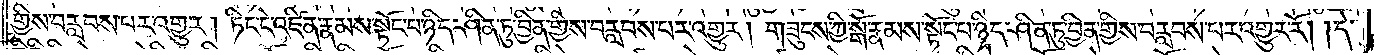གྱིས་བརླབས་པར་འགྱུར། ཏིང་ངེ་འཛིན་རྣམས་སྟོང་པ་ཉིད་ཤིན་ཏུ་བྱིན་གྱིས་བརླབས་པར་འགྱུར། གཟུངས་ཀྱི་སྒོ་རྣམས་སྟོང་པ་ཉིད་ཤིན་ཏུ་བྱིན་གྱིས་བརླབས་པར་འགྱུར་རོ། །དེ་
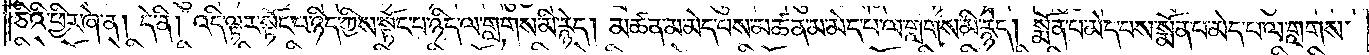ཅིའི་ཕྱིར་ཞེ་ན། དེ་ནི། འདི་ལྟར་སྟོང་པ་ཉིད་ཀྱིས་སྟོང་པ་ཉིད་ལ་གླགས་མི་རྙེད། མཚན་མ་མེད་པས་མཚན་མ་མེད་པ་ལ་གླགས་མི་རྙེད། སྨོན་པ་མེད་པས་སྨོན་པ་མེད་པ་ལ་གླགས་
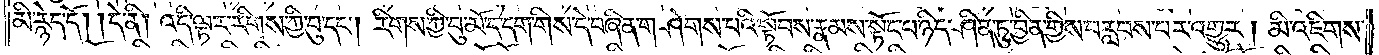མི་རྙེད་དོ། །དེ་ནི། འདི་ལྟར་རིགས་ཀྱི་བུ་དང༌། རིགས་ཀྱི་བུ་མོ་དེ་དག་གིས་དེ་བཞིན་གཤེགས་པའི་སྟོབས་རྣམས་སྟོང་པ་ཉིད་ཤིན་ཏུ་བྱིན་གྱིས་བརླབས་པར་འགྱུར། མི་འཇིགས་
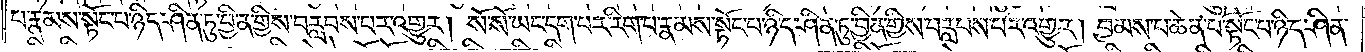པ་རྣམས་སྟོང་པ་ཉིད་ཤིན་ཏུ་བྱིན་གྱིས་བརླབས་པར་འགྱུར། སོ་སོ་ཡང་དག་པར་རིག་པ་རྣམས་སྟོང་པ་ཉིད་ཤིན་ཏུ་བྱིན་གྱིས་བརླབས་པར་འགྱུར། བྱམས་པ་ཆེན་པོ་སྟོང་པ་ཉིད་ཤིན་
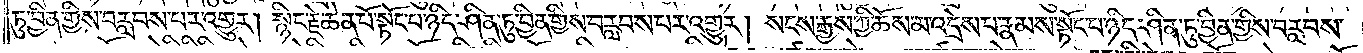ཏུ་བྱིན་གྱིས་བརླབས་པར་འགྱུར། སྙིང་རྗེ་ཆེན་པོ་སྟོང་པ་ཉིད་ཤིན་ཏུ་བྱིན་གྱིས་བརླབས་པར་འགྱུར། སངས་རྒྱས་ཀྱི་ཆོས་མ་འདྲེས་པ་རྣམས་སྟོང་པ་ཉིད་ཤིན་ཏུ་བྱིན་གྱིས་བརླབས་
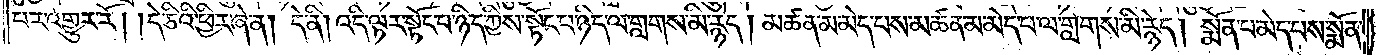པར་འགྱུར་རོ། །དེ་ཅིའི་ཕྱིར་ཞེ་ན། དེ་ནི། འདི་ལྟར་སྟོང་པ་ཉིད་ཀྱིས་སྟོང་པ་ཉིད་ལ་གླགས་མི་རྙེད། མཚན་མ་མེད་པས་མཚན་མ་མེད་པ་ལ་གླགས་མི་རྙེད། སྨོན་པ་མེད་པས་སྨོན་
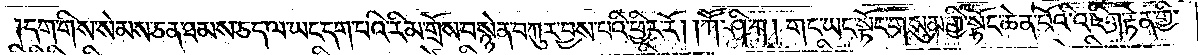དག་གིས་སེམས་ཅན་ཐམས་ཅད་ལ་ཡང་དག་པའི་རིམ་གྲོས་བསྙེན་བཀུར་བྱས་པའི་ཕྱིར་རོ། །ཀཽ་ཤི་ཀ། གང་ཡང་སྟོང་གསུམ་གྱི་སྟོང་ཆེན་པོའི་འཇིག་རྟེན་གྱི་
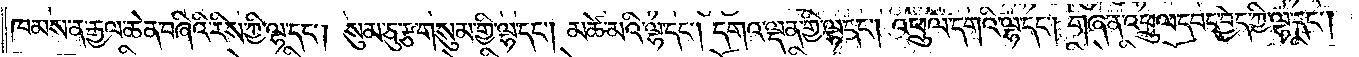ཁམས་ན་རྒྱལ་ཆེན་བཞིའི་རིས་ཀྱི་ལྷ་དང༌། སུམ་ཅུ་རྩ་གསུམ་གྱི་ལྷ་དང༌། མཚེ་མའི་ལྷ་དང༌། དགའ་ལྡན་གྱི་ལྷ་དང༌། འཕྲུལ་དགའི་ལྷ་དང༌། གཞན་འཕྲུལ་དབང་བྱེད་ཀྱི་ལྷ་དང༌།
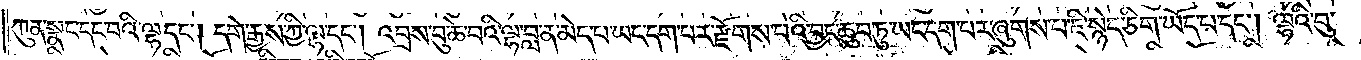ཀུན་སྣང་དང་བའི་ལྷ་དང༌། དགེ་རྒྱས་ཀྱི་ལྷ་དང༌། འབྲས་བུ་ཆེ་བའི་ལྷ་བླ་ན་མེད་པ་ཡང་དག་པར་རྫོགས་པའི་བྱང་ཆུབ་ཏུ་ཡང་དག་པར་ཞུགས་པ་ཇི་སྙེད་ཅིག་ཡོད་པ་དང༌། ལྷའི་བུ་
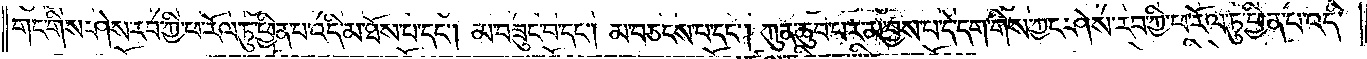གང་གིས་ཤེས་རབ་ཀྱི་ཕ་རོལ་ཏུ་ཕྱིན་པ་འདི་མ་ཐོས་པ་དང༌། མ་བཟུང་བ་དང༌། མ་བཅངས་པ་དང༌། ཀུན་ཆུབ་པར་མ་བྱས་པ་དེ་དག་གིས་ཀྱང་ཤེས་རབ་ཀྱི་ཕ་རོལ་ཏུ་ཕྱིན་པ་འདི་
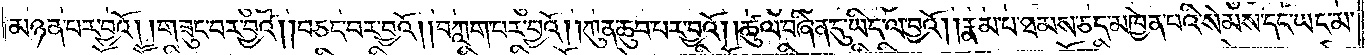མཉན་པར་བྱའོ། །གཟུང་བར་བྱའོ། །བཅང་བར་བྱའོ། །བཀླག་པར་བྱའོ། །ཀུན་ཆུབ་པར་བྱའོ། །ཚུལ་བཞིན་དུ་ཡིད་ལ་བྱའོ། །རྣམ་པ་ཐམས་ཅད་མཁྱེན་པའི་སེམས་དང་ཡང་མ་
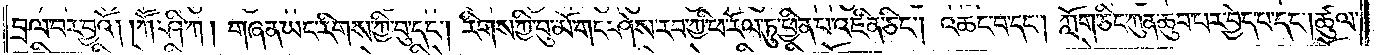བྲལ་བར་བྱའོ། །ཀཽ་ཤི་ཀ། གཞན་ཡང་རིགས་ཀྱི་བུ་དང༌། རིགས་ཀྱི་བུ་མོ་གང་ཤེས་རབ་ཀྱི་ཕ་རོལ་ཏུ་ཕྱིན་པ་འཛིན་ཅིང༌། འཆང་བ་དང༌། ཀློག་ཅིང་ཀུན་ཆུབ་པར་བྱེད་པ་དང༌། ཚུལ་
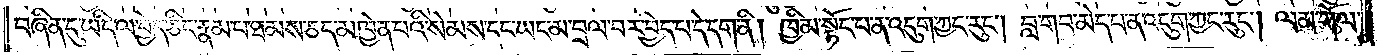བཞིན་དུ་ཡིད་ལ་བྱེད་ཅིང་རྣམ་པ་ཐམས་ཅད་མཁྱེན་པའི་སེམས་དང་ཡང་མ་བྲལ་བར་བྱེད་པ་དེ་དག་ནི། ཁྱིམ་སྟོང་པ་ན་འདུག་ཀྱང་རུང༌། བླ་གབ་མེད་པ་ན་འདུག་ཀྱང་རུང༌། ལམ་གོལ་
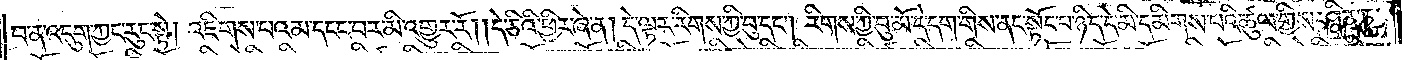བ་ན་འདུག་ཀྱང་རུང་སྟེ། འཇིགས་པའམ་དངང་བར་མི་འགྱུར་རོ། །དེ་ཅིའི་ཕྱིར་ཞེ་ན། དེ་ལྟར་རིགས་ཀྱི་བུ་དང༌། རིགས་ཀྱི་བུ་མོ་དེ་དག་གིས་ནང་སྟོང་པ་ཉིད་དེ་མི་དམིགས་པའི་ཚུལ་གྱིས་ཤིན་ཏུ་
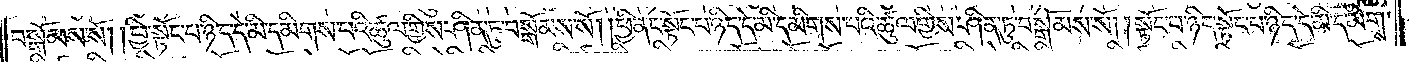བསྒོམས་སོ། །ཕྱི་སྟོང་པ་ཉིད་དེ་མི་དམིགས་པའི་ཚུལ་གྱིས་ཤིན་ཏུ་བསྒོམས་སོ། །ཕྱི་ནང་སྟོང་པ་ཉིད་དེ་མི་དམིགས་པའི་ཚུལ་གྱིས་ཤིན་ཏུ་བསྒོམས་སོ། །སྟོང་པ་ཉིད་སྟོང་པ་ཉིད་དེ་མི་དམིགས་
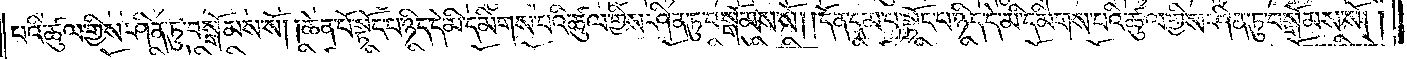པའི་ཚུལ་གྱིས་ཤིན་ཏུ་བསྒོམས་སོ། །ཆེན་པོ་སྟོང་པ་ཉིད་དེ་མི་དམིགས་པའི་ཚུལ་གྱིས་ཤིན་ཏུ་བསྒོམས་སོ། །དོན་དམ་པ་སྟོང་པ་ཉིད་དེ་མི་དམིགས་པའི་ཚུལ་གྱིས་ཤིན་ཏུ་བསྒོམས་སོ། །
